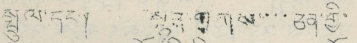སྤྲོལ་དང་། སྙན གྲགས་་་ཅན་གྱི་
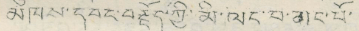མཁས་དབང་བརྗོད་ཀྱི་མི་ལང་བ་མང་པོ་
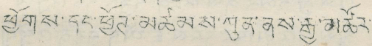ཕྱོགས་དང་ཕྱོཊ་མཚམས་ཀུན་ནས་རྒྱ་མཚོར་
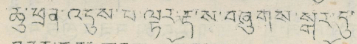ཆུ་ཕྲན་འདུས་པ་ལྟར་རྡ་ས་བཞུགས་སྒར་དུ་
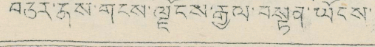བཅར་དས་གངས་ལྗོངས་རྒྱལ་བསྟན་ཡོངས་
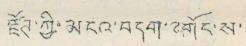རྫོཊ་ཀྱི་མངའ་བདག་༸གོང་ས་
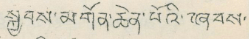སྐྱབས་མགོན་ཆེན་པོའི་ཞཞབས་
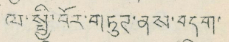ལ་སྤྱི་བོར་གཏུཊ་ནས་བདག་
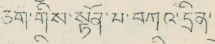ཅག་གིས་སྟོན་པ་བཀའ་དྲིན་
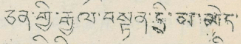ཅན་གྱི་རྒྱལ་བསྟན་དི་མ་མེད་
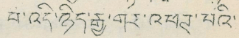བ་འདི་ཉིད་རྒྱ་གར་འཕཊ་པའི་
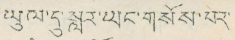ཡུལ་དུ་སླར་ཡང་གསོས་པར་
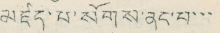མཛད་པ་སོགས་ནང་པ་་་
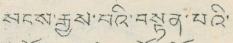སངས་རྒྱས་པའི་བསྟན་པའི་
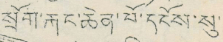སྲོག་རྐང་ཆེན་པོ་དངོས་སུ་
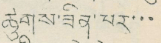ཚུགས་ཟིན་པར་་་
